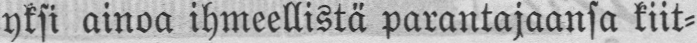yksi ainoa ihmeellistä parantajaansa kiit-
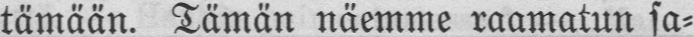tämään. Tämän näemme raamatun sa-
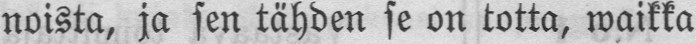noista, ja sen tähden se on totta, waikka
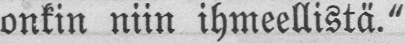onkin niin ihmeellistä."
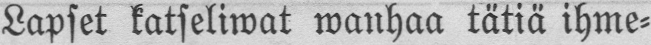Lapset katseliwat wanhaa tätiä ihme-
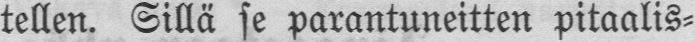tellen. Sillä se parantuneitten pitaalis-
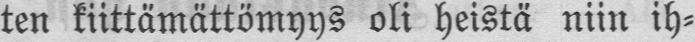ten kiittämättömyys oli heistä niin ih-
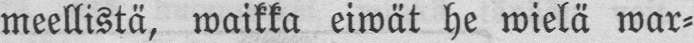meellistä, waikka eiwät he wielä war-
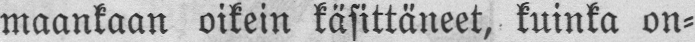maankaan oikein käsittäneet, kuinka on-
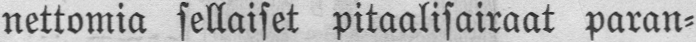nettomia sellaiset pitaalisairaat paran-
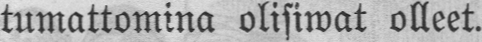tumattomina olisiwat olleet.
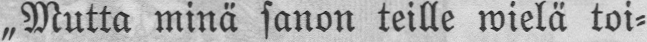„Mutta minä sanon teille wielä toi-
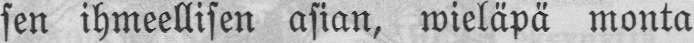sen ihmeellisen asian, wieläpä monta
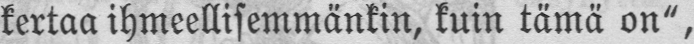kertaa ihmeellisemmänkin, kuin tämä on",
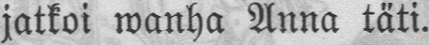jatkoi wanha Anna täti.
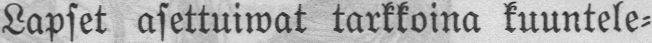Lapset asettuiwat tarkkoina kuuntele-
